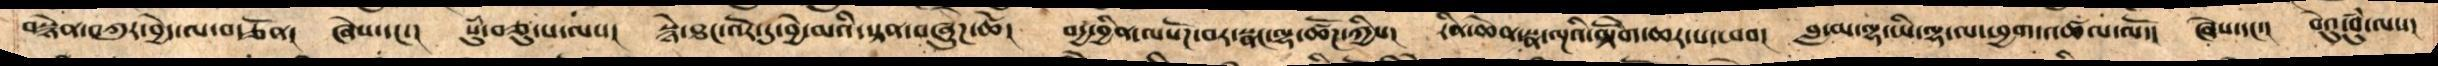བསྙེན་བཀུར་བྱེད་ལ་བརྩོན།  ཞེས་དང་།   སུཾ་བཅུ་པ་ལས།  སྙེ་ཐང་འོར་དུ་བྱེ་མའི་སྟན་བཞུཌ་ཚེ།   བདྱ་བྱིན་ལསོཌ་བར་སྣང་ལྷ་ཚོཌ་ཀྱིས།   རིན་ཆེན་སྣ་ལྔའི་མྟེོག་ཆར་པ་ཕབ།   བླ་མ་ལྷ་ཡི་ལྷ་ལ་ཕྱག་འཚལ་ལོ།  ཞེས་དང་། བེའུ་བུཾ་ལས།
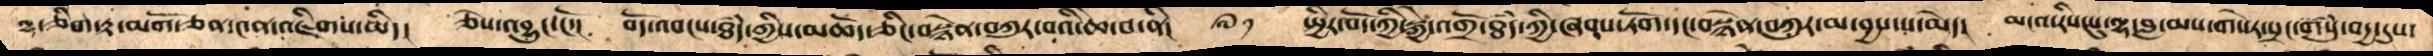ལྷ་ཅིག་རྟ་མགོ་ཅན་༤ན་འཇིགས་མིད།   ཅེས་འབྱུང་ངོ་།    བོད་འབངས་ཐཾད་གྱིས་མཆོད་ཅིང་བསྙེན་བཀུར་བའི་ཆེ་བ་ནི།  ༧༡  སྤྱིར་བོད་ཀྱི་སྐྱེ་འགྲོ་ཐཾད་ཀྱི་ཞབས་ཏོག་དང་བསྙེན་བཀུར་མ་བྱས་པ་མེད། མངའ་རིས་སུ་ལྷ་བླ་མས་གསེར་སྲང་གསུཾ་བདྱ་དུས་་
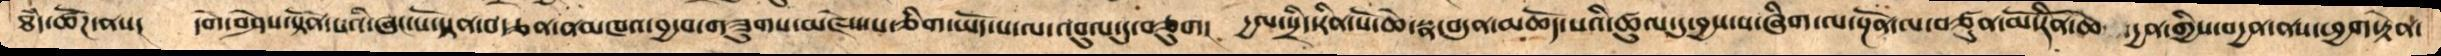ཐཾད་ཚོཌ་ནས།   དགེ་བཤེས་སྟོན་པའི་ཞང་པོ་སྟན་བ་ཙན་ནམཁའ་བྱ་བ་གཟུགས་མཛེས་པ་ཅིག་ཡོད་པ་ལ་འབུལ་དུ་བཅུག།   དྱལ་སྲིད་རིན་པོ་ཆེ་སྣ་བདུན་མཆོད་པའི་ཚུལ་དུ་བྱས་པ་ཞིག་ལ་སྔོན་ལ་བཙུན་མོ་རིནོ་ཆེ་དྱན་གྱིས་བདྱན་ནས་ཕྱག་རྟེན་
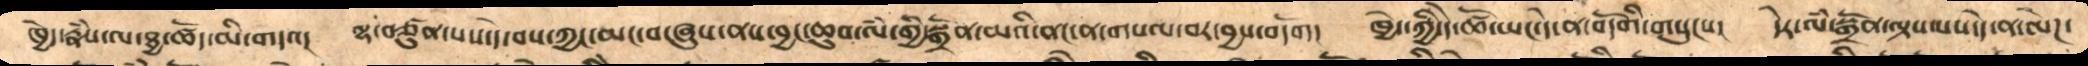ཁྱེད་རྣཾས་ཐྱ་ཚོད་མི་གདའ།   ལྷ་བཙུན་པས་དེ་བས་ཀྱང་མང་བ་ཞུས་ནས་བྱང་ཆུབ་ལཾ་གྱི་སྒྲོན་མའི་ནང་ན་གསལ་བར་བྱས་བདོག།  ཁྱེད་ཀྱི་དེ་ཚེ་ཡང་དེ་ན་བདོགི་གསུངས།   དེར་ལཾ་སྒྲོན་ལྟས་པས་དེ་ན་ལེཌ་
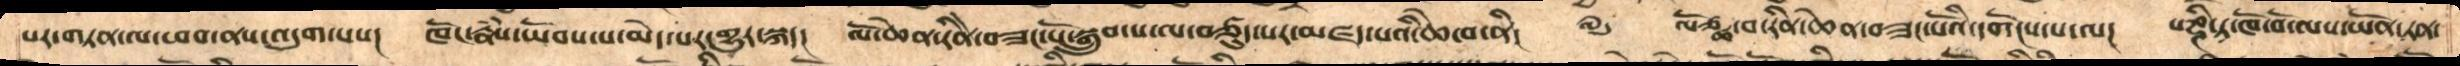པར་གཏན་ལ་ཕབ་ནས་འདུག་པས།   ཁོང་རྣཾས་ཡོབས་པ་མེད་པར་གྱུར་སྐད།   ལོ་ཆེན་རིནེ་བཟང་པོ་སྒྲུབ་པ་ལ་བཙུད་པར་མཛད་པའི་ཆེ་བ་ནི།  ༧༦ ལོཙྪ་བ་རིན་ཆེན་བཟང་པོའི་དགོངས་པ་ལ།   པཎྜིཏ་ཁོ་བོ་ལས་ཡོན་ཏན་
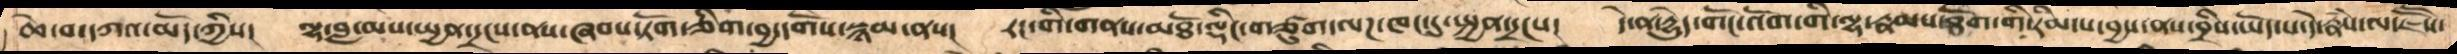ཆེ་བ་དཀའ་མོད་ཀྱིས།    ལྷ་བླ་མས་སྤྱན་དྲངས་ནས་ཞབས་ཏོག་ཅིག་བྱ་དགོས་སྙམ་ནས།    རང་གི་གནས་མཐོ་ལྡིང་གི་གཙུག་ལཌ་ཁང་དུ་སྤྱན་དྲངས།     དེ་ན་དྱུདེ་གོང་འོག་གི་ལྷ་རྣམས་ཐོག་གི་རིམ་པ་བྱས་ནས་བྲིས་ཡོད་པ་དེ་རྣཾས་ལ་ཇཽས་
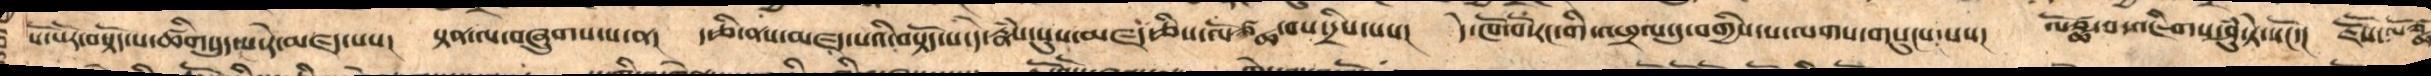སོ་སོར་བསྟོད་པ་ཚིགསུད་པ་རེ་མཛད་པས།  སྟན་ལ་བཞུགས་པ་ན།  ད་ཅི་ནས་མཛད་པའི་བསྟོད་པ་དེ་རྣཾས་སུས་མཛད་ཅེས་ལོཚྩ་བས་དྲིས་པས།   དེ་ཁོ་བོ་རང་གི་འཕྲལ་དུ་བགྱིས་པ་ལགས་གསུངས་པས།   ལོཙྪ་བ་འཇིགས་ཤུཾ་ཏེ་སོང་།  ཇཽས་་ལོཙྪ
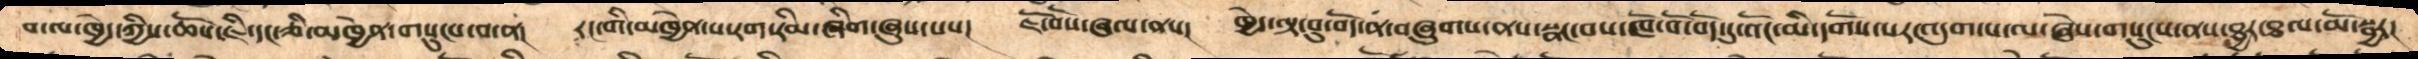བ་ལ་ཁྱེད་ཀྱིས་ཆོས་ཇི་དང་ཅི་མཁྱེན་གསུངས་བ་ན།   རང་གི་མཁྱེན་པ་རག་རིམ་ཞིག་ཞུས་པས།  ཇོ་བོས་ཞལ་ནས།  ཁྱེད་ལྟ་བུ་བོད་ན་བཞུགས་ནས་སྣང་བས་ཁོ་བོ་བོད་དུ་འོང་མི་དགོས་པར་འདུག་པ་ལ་ཞེས་གསུངས་ནས་ཐྱར་ཐལ་མོ་སྦྱར།
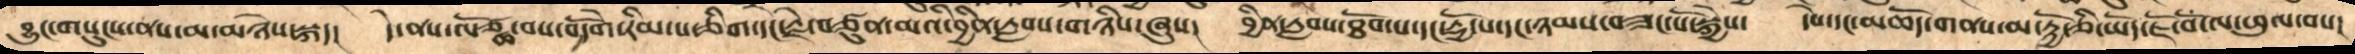བྱུང་གསུངས་ནས་མ་མཉེས་སྐད།   དེ་ནས་ལོཙྪ་བས་བདོགེ་རིམ་པ་ཅིག་དང་རྗེ་བཙུན་མའི་བྱིན་རླབས་གཉིས་ཞུས།   བྱིན་རླབས་ཐོབ་པ་དང་རྟྱོ་་པ་དང་ཉམས་བཟང་པོ་སྐྱེས།   དཔེ་དང་མཆོད་གནས་མ་རྟྱོ་ཅི་ཡོད་ཇོ་བོ་ལ་ཕུལ་བས།
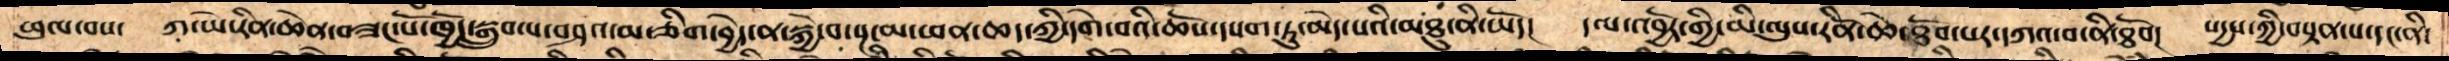ཕུལ་བས། ཀྭ་ཡེ་རིན་ཆེན་བཟང་པོ་ཁྱེད་སྒྲུབ་པ་གཤའ་མ་ཅིག་བྱེད་ན་སྐྱེ་བ་སྔ་མ་ཕན་ཆད་ཀྱི་དགེ་བའི་ཆོས་དཔག་ཏུ་མེད་པའི་མཐུ་ནི་ཡོད། དལ་འབྱོར་གྱི་མི་ལུས་རིནེ་ཆེ་ཐོབ་པར་དཀའ་བ་ནི་ཐོབ།  སདྱས་ཀྱི་བསྟན་པ་དང་ནི་
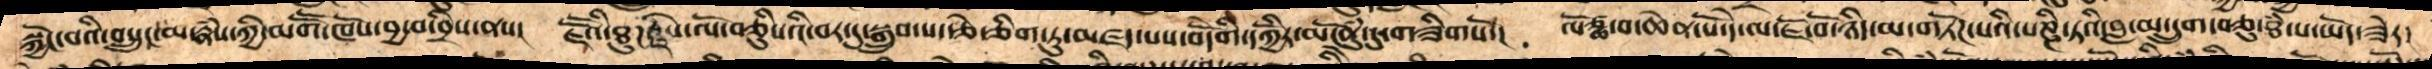སྐྱོང་བའི་བསྲུང་མ་རྣཾས་ཀྱི་མགཽ་ཁོས་བྱ་བ་བྲིས་ནས།  ཇཽའི་ཐུཌ་རྗེས་ལོ་བཅིུསའི་བར་དུ་སྒྲུབ་པ་རྩེ་ཅིག་ཏུ་མཛད་པས་བདེོགི་དཀྱོིར་མངོནུཾ་དུ་གཟིགསོ་།    ལོཙྪ་བ་ཆེན་པོ་དེ་ཇོ་བོ་ཉིད་མ་གཏོཌ་པའི་པཎྜི་ཏའི་བླ་མ་དྲུག་བཅུ་ཐཾ་པ་ཡོད་ཟེར།
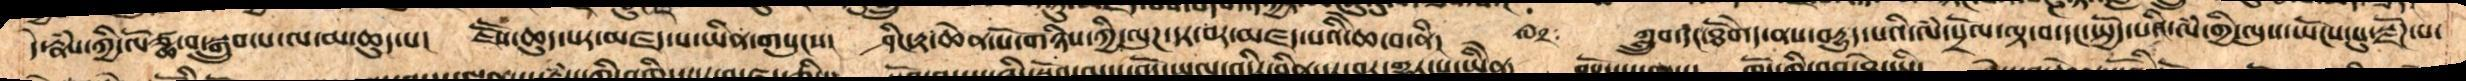དེ་རྣཾས་ཀྱི་ལོཙྪ་བ་སྒྲུབ་པ་ལ་མ་ཆུད་པ། ཇཽས་ཆུད་པར་མཛད་པ་ཡིན་གསུངས། ཤིང་རྟ་ཆེན་པོ་གཉིས་ཀྱི་ལུཌ་དར་བར་མཛད་པའི་ཆེ་བ་ནི། ༧༢ ཀླྲུབ་དང་ཐོགེད་ནས་བདྱུད་པའི་ལཾ་སྲོལ་ལྟ་བདང་སྤྱོད་པའི་ལཾ་གྱི་ལུས་ཡོངས་སུ་སྫོཌ་པ་
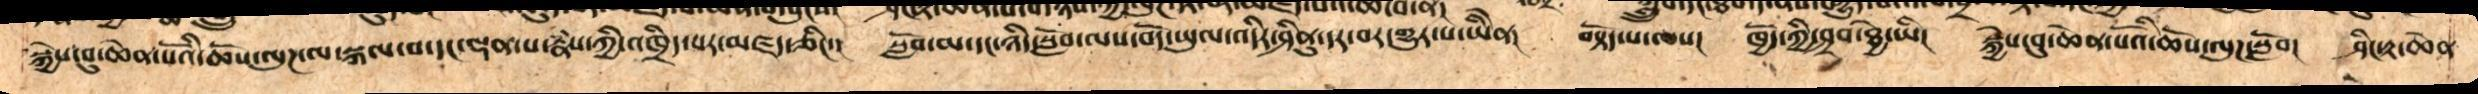སྐྱེས་བུ་ཆེན་པོའི་ཆོས་ལུཌ་ལ་སྐལ་བ་དང་ལྡན་པ་རྣཾས་ཀྱི་འཁྲིད་པར་མཛད་ཅིང་། སློབ་མ་དང་ཉིད་སློབ་ལས་བོད་ཡུལ་འདིར་ཤིནུ་དར་བར་གྱུར་པ་ཡིེན། བསྟོད་པ་ལས། ཁྱོད་ཉིད་ཤྲབ་ཐྱེ་ཡི། སྐྱེས་བུ་ཆེན་པོའི་ཆོས་ལུཌ་སློབ། ཤིང་རྟ་ཆེན་
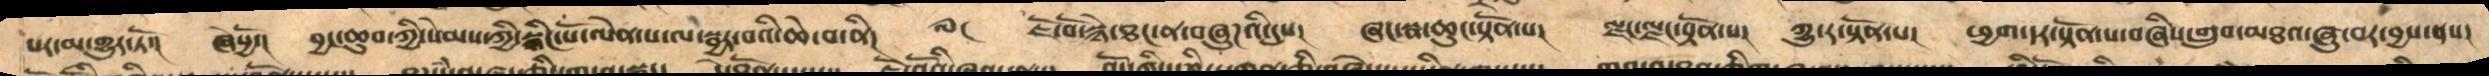པར་མ་གྱུར་ཏོ།  ཞེསྱོ་།   བྱང་ཆུབ་ཀྱི་སེམས་ཀྱི་སྙིང་པོ་ལེན་པ་ལ་སྦྱར་བའི་ཆེ་བ་ནི།  ༧༨  ཇོ་བོ་སྙེ་ཐང་ན་བཞུཌའི་དུས།   ཞང་སྣ་ཆུང་སྟོན་པ།  ལྗང་ལྗང་སྟོན་པ།   ཀྱུར་སྟོན་པ།  ཕྱག་དར་སྟོན་པ་བཞིས་གྲུབ་མཐའ་ཞུ་བར་བྱས་ནས།
